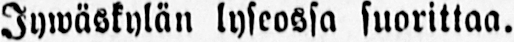Jywäskylän lyseossa suorittaa.
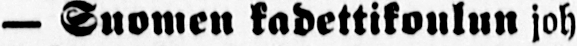— Suomen kadettikoulun joh-
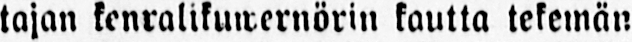tajan kenralikuwernörin kautta tekemän
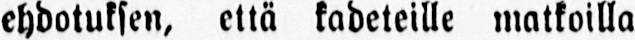ehdotuksen, että kadeteille matkoilla
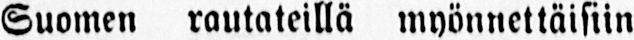Suomen rautateillä myönnettäisiin
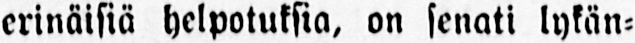erinäisiä helpotuksia, on senati lykän-
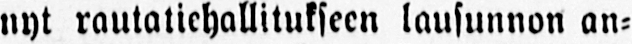nyt rautatiehallitukseen lausunnon an-
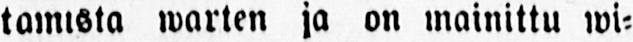tamista warten ja on mainittu wi-
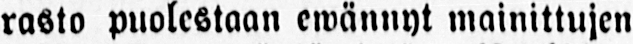rasto puolestaan ewännyt mainittujen
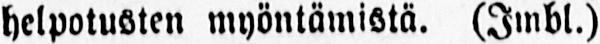helpotusten myöntämistä. (Jmbl.)
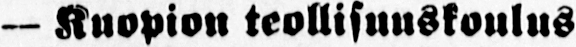— Kuopion teollisuuskoulus
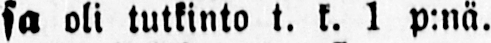sa oli tutkinto t. k. 1 p:nä.
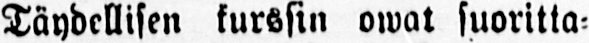Täydellisen kurssin owat suoritta-
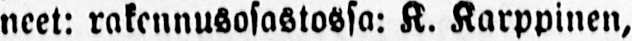neet: rakennusosastossa: K. Karppinen,
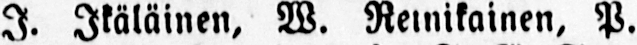I. Ikäläinen, W. Reinikainen, P.
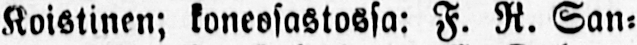Koistinen; koneosastossa: F. R. San-
